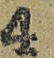4
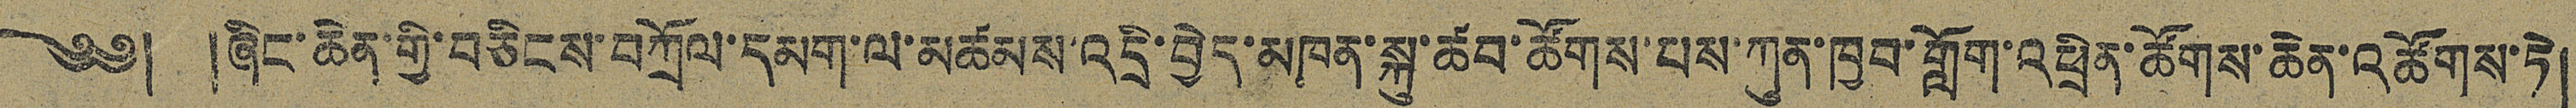༄༅། །ཞིང་ཆེན་གྱི་བཅིངས་བཀྲོལ་དམག་ལ་མཚམས་འདྲི་བྱེད་མཁན་སྐུ་ཚབ་ཚོགས་པས་ཀུན་ཁྱབ་གློག་འཕྲིན་ཚོགས་ཆེན་འཚོགས་ཏེ།
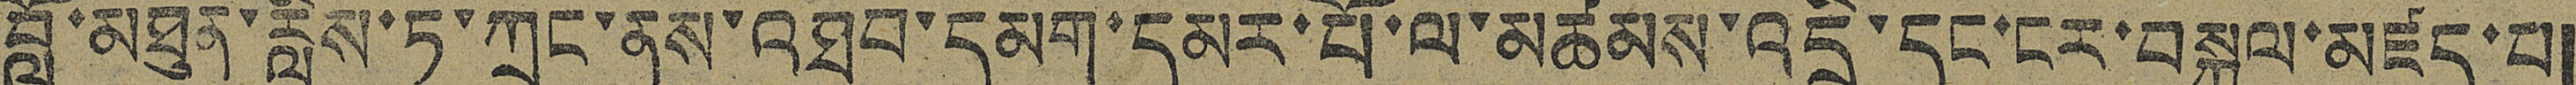བློ་མཐུན་རླིས་ཏ་ཀྲང་ནས་འཐབ་དམག་དམར་པོ་ལ་མཚམས་འདྲི་དང་ངར་བསྐུལ་མཛད་པ།
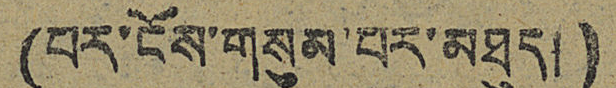(པར་ངོས་གསུམ་པར་མཐུད།)
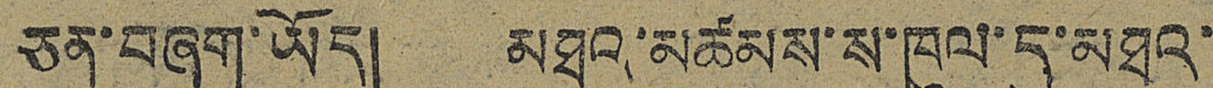ཅན་བཞག་ཡོད། མཐའ་མཚམས་ས་ཁུལ་དུ་མཐའ་
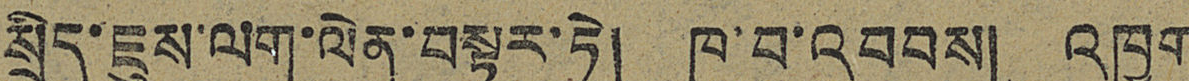སྲིད་ཇུས་ལག་ལེན་བསྟར་ཏེ། ཁ་བ་འབབས། འཁྱག
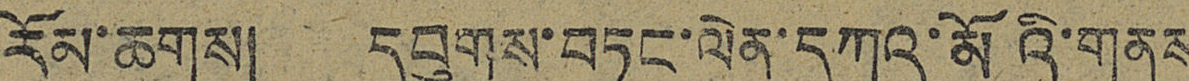རོམ་ཆགས། དབུགས་བཏང་ལེན་དཀའ་མོའི་གནས
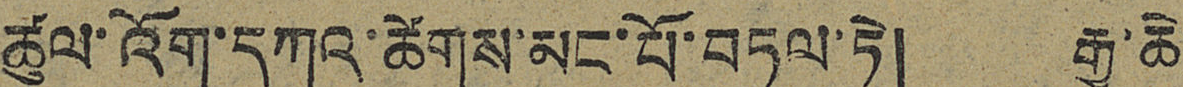ཚུལ་འོག་དཀའ་ཚེགས་མང་པོ་བཏུལ་ཏེ། རྒྱ་ཆེ་
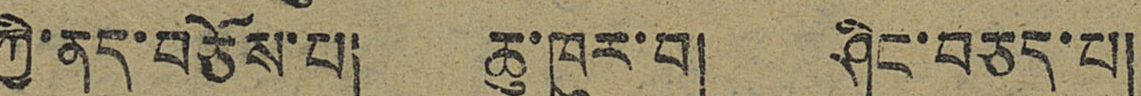ཀྱི་ནད་བཅོས་པ། ཆུ་ཁུར་བ། ཤིང་བཅད་པ།
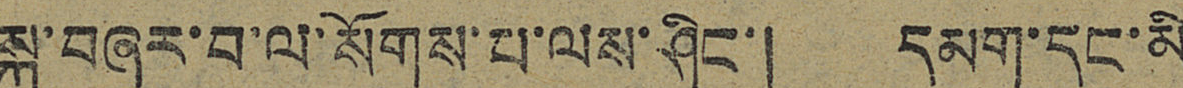སྐྲ་བཞར་བ་ལ་སོགས་པ་ལས་ཤིང་། དམག་དང་མི
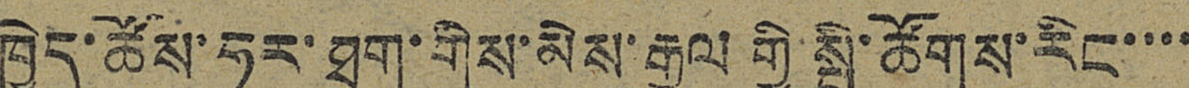ཁྱེད་ཚོས་ཧུར་ཐག་གིས་མེས་རྒྱལ གྱི་སྤྱི་ཚོགས་རིང་་་་
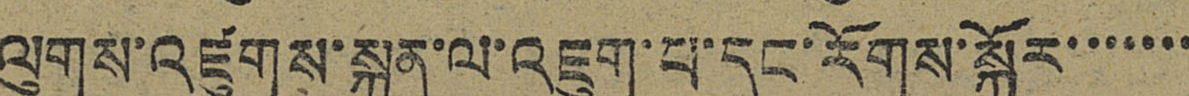ལུགས་འཛུགས་སྐྲུན་ལ་འཇུག་པ་དང་རོགས་སྐྱོར་་་་་་་
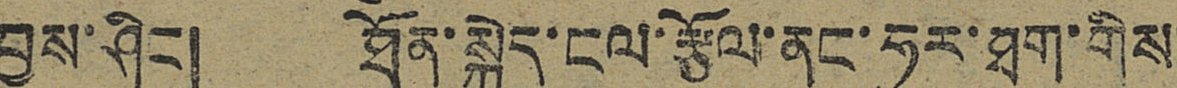བྱས་ཤིང། ཐོན་སྐྱེད་ངལ་རྩོལ་ནང་ཧུར་ཐག་གིས་
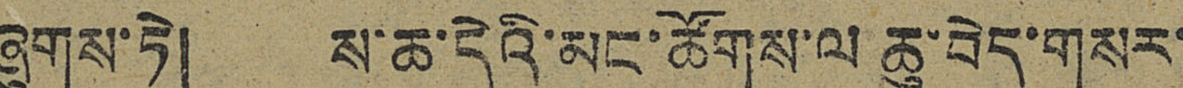ཞུགས་ཏེ། ས་ཆ་དེའི་མང་ཚོགས་ལ ཆུ་བེད་གསར་
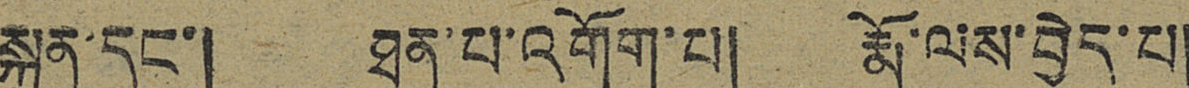སྐྲུན་དང་། ཐན་པ་འགོག་པ། རྨོ་ལས་བྱེད་པ།
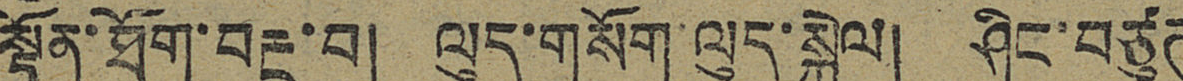སྟོན་ཐོག་བརྔ་བ། ལུད་གསོག་ལུད་སྐྱེལ། ཤིང་བཙུཊ
